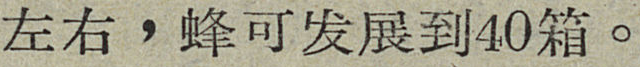左右，蜂可发展到40箱。
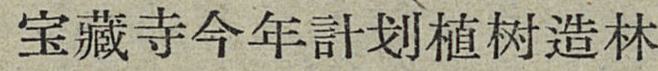宝藏寺今年計划植树造林
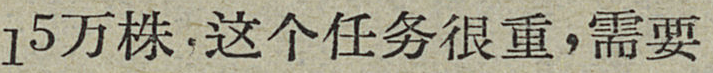15万株，这个任务很重，需要
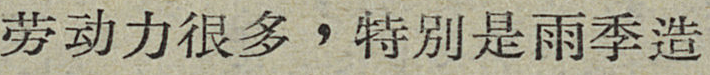劳动力很多，特别是雨季造
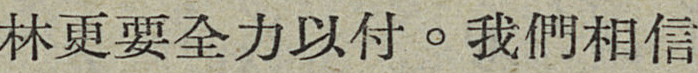林更要全力以付。我們相信
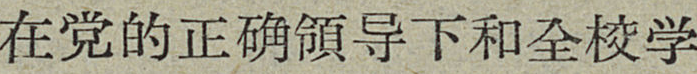在党的正确領导下和全校学
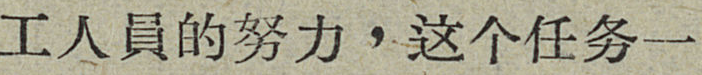工人員的努力，这个任务一
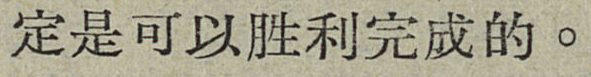定是可以胜利完成的。
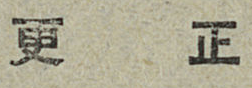更 正
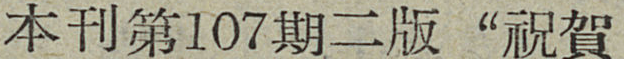本刊第107期二版“祝賀
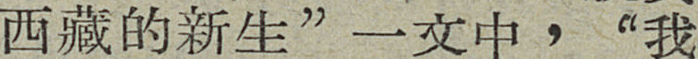西藏的新生”一文中，“我
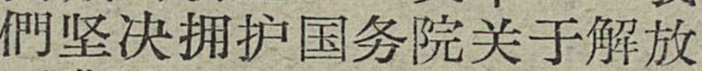們坚决拥护国务院关于解放
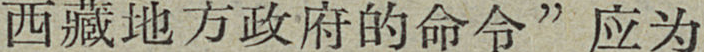西藏地方政府的命令”应为
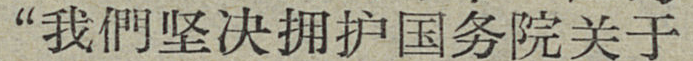“我們坚决拥护国务院关于
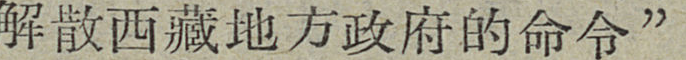解散西藏地方政府的命令”
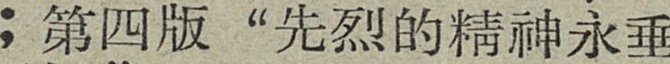；第四版“先烈的精神永垂
